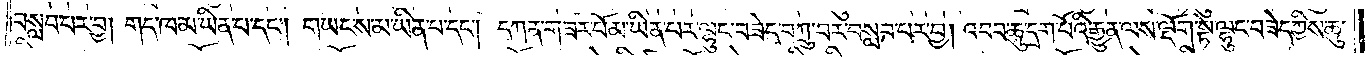བསླབ་པར་བྱ། གད་ཁ་མ་ཡིན་པ་དང༌། གཡང་ས་མ་ཡིན་པ་དང༌། དཀན་གཟར་པོ་མ་ཡིན་པར་ལྷུང་བཟེད་བཀྲུ་བར་བསླབ་པར་བྱ། འབབ་ཆུ་དྲག་པོའི་རྒྱུན་ལས་ལྡོག་སྟེ་ལྷུང་བཟེད་ཀྱིས་ཆུ་
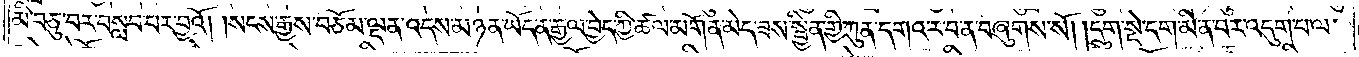མི་བཅུ་པར་བསླབ་པར་བྱའོ། །སངས་རྒྱས་བཅོམ་ལྡན་འདས་མཉན་ཡོད་ན་རྒྱལ་བྱེད་ཀྱི་ཚལ་མགོན་མེད་ཟས་སྦྱིན་གྱི་ཀུན་དགའ་ར་བ་ན་བཞུགས་སོ། །དྲུག་སྡེ་དག་མི་ན་བར་འདུག་པ་ལ་
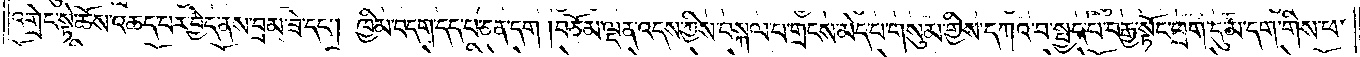འགྲེང་སྟེ་ཆོས་འཆད་པར་བྱེད་ནས་བྲམ་ཟེ་དང༌། ཁྱིམ་བདག་དད་པ་ཅན་དག །བཅོམ་ལྡན་འདས་ཀྱིས་བསྐལ་པ་གྲངས་མེད་པ་གསུམ་གྱིས་དཀའ་བ་སྤྱད་པ་བརྒྱ་སྟོང་ཕྲག་དུ་མ་དག་གིས་ཕ་
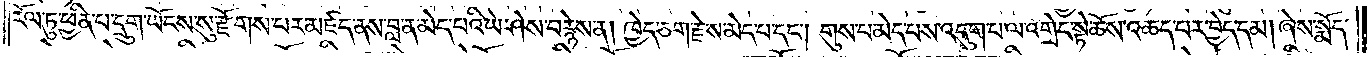རོལ་ཏུ་ཕྱིན་པ་དྲུག་ཡོངས་སུ་རྫོགས་པར་མཛད་ནས་བླ་ན་མེད་པའི་ཡེ་ཤེས་བརྙེས་ན། ཁྱེད་ཅག་རྗེ་ས་མེད་པ་དང༌། གུས་པ་མེད་པས་འདུག་པ་ལ་འགྲེང་སྟེ་ཆོས་འཆད་པར་བྱེད་དམ། ཞེས་སྨོད་
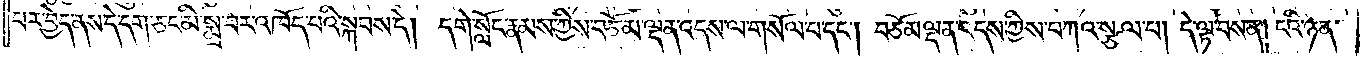པར་བྱེད་ནས་དེ་དག་ཅང་མི་སྨྲ་བར་འཁོད་པའི་སྐབས་དེ། དགེ་སློང་རྣམས་ཀྱིས་བཅོམ་ལྡན་འདས་ལ་གསོལ་པ་དང༌། བཅོམ་ལྡན་འདས་ཀྱིས་བཀའ་སྩལ་པ། དེ་ལྟ་བས་ན། ངའི་ཉན་
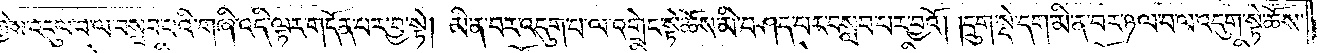ཐོས་རྣམས་ཀྱིས་འདུལ་བ་ལ་བསླབ་པའི་གཞི་འདི་ལྟར་གདོན་པར་བྱ་སྟེ། མི་ན་བར་འདུག་པ་ལ་འགྲེང་སྟེ་ཆོས་མི་བཤད་པར་བསླབ་པར་བྱའོ། །དྲུག་སྡེ་དག་མི་ན་བར་ཉལ་བ་ལ་འདུག་སྟེ་ཆོས་
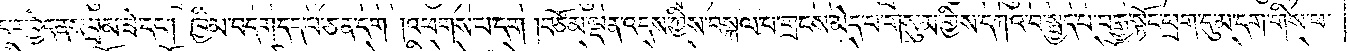འཆད་པར་བྱེད་ནས་བྲམ་ཟེ་དང༌། ཁྱིམ་བདག་དད་པ་ཅན་དག །འཕགས་པ་དག །བཅོམ་ལྡན་འདས་ཀྱིས་བསྐལ་པ་གྲངས་མེད་པ་གསུམ་གྱིས་དཀའ་བ་སྤྱད་པ་བརྒྱ་སྟོང་ཕྲག་དུ་མ་དག་གིས་ཕ་
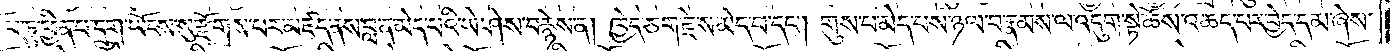རོལ་ཏུ་ཕྱིན་པ་དྲུག་ཡོངས་སུ་རྫོགས་པར་མཛད་ནས་བླ་ན་མེད་པའི་ཡེ་ཤེས་བརྙེས་ན། ཁྱེད་ཅག་རྗེས་མེད་པ་དང༌། གུས་པ་མེད་པས་ཉལ་བ་རྣམས་ལ་འདུག་སྟེ་ཆོས་འཆད་པར་བྱེད་དམ་ཞེས་
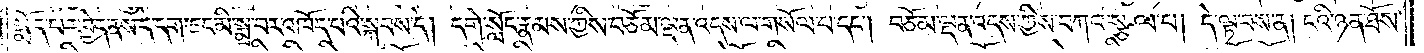སྨོད་པར་བྱེད་ནས་དེ་དག་ཅང་མི་སྨྲ་བར་འཁོད་པའི་སྐབས་དེ། དགེ་སློང་རྣམས་ཀྱིས་བཅོམ་ལྡན་འདས་ལ་གསོལ་པ་དང༌། བཅོམ་ལྡན་འདས་ཀྱིས་བཀའ་སྩལ་པ། དེ་ལྟ་བས་ན། ངའི་ཉན་ཐོས་
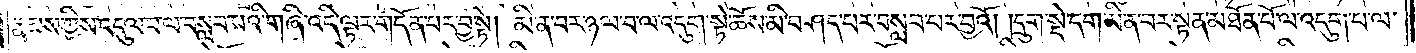རྣམས་ཀྱིས་འདུལ་བ་ལ་བསླབ་པའི་གཞི་འདི་ལྟར་གདོན་པར་བྱ་སྟེ། མི་ན་བར་ཉལ་བ་ལ་འདུག་སྟེ་ཆོས་མི་བཤད་པར་བསླབ་པར་བྱའོ། །དྲུག་སྡེ་དག་མི་ན་བར་སྟན་མཐོན་པོ་ལ་འདུག་པ་ལ་
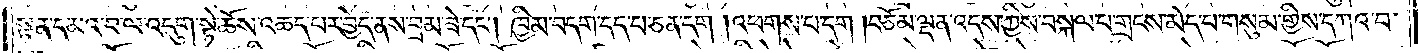སྟན་དམའ་བ་ལ་འདུག་སྟེ་ཆོས་འཆད་པར་བྱེད་ནས་བྲམ་ཟེ་དང༌། ཁྱིམ་བདག་དད་པ་ཅན་དག །འཕགས་པ་དག །བཅོམ་ལྡན་འདས་ཀྱིས་བསྐལ་པ་གྲངས་མེད་པ་གསུམ་གྱིས་དཀའ་བ་
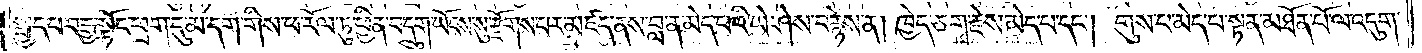སྤྱད་པ་བརྒྱ་སྟོང་ཕྲག་དུ་མ་དག་གིས་ཕ་རོལ་ཏུ་ཕྱིན་པ་དྲུག་ཡོངས་སུ་རྫོགས་པར་མཛད་ནས་བླ་ན་མེད་པའི་ཡེ་ཤེས་བརྙེས་ན། ཁྱེད་ཅག་རྗེས་མེད་པ་དང༌། གུས་པ་མེད་པ་སྟན་མཐོན་པོ་ལ་འདུག་
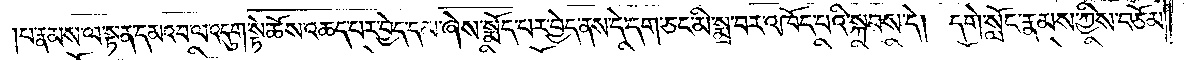པ་རྣམས་ལ་སྟན་དམའ་བ་ལ་འདུག་སྟེ་ཆོས་འཆད་པར་བྱེད་དམ་ཞེས་སྨོད་པར་བྱེད་ནས་དེ་དག་ཅང་མི་སྨྲ་བར་འཁོད་པའི་སྐབས་དེ། དགེ་སློང་རྣམས་ཀྱིས་བཅོམ་
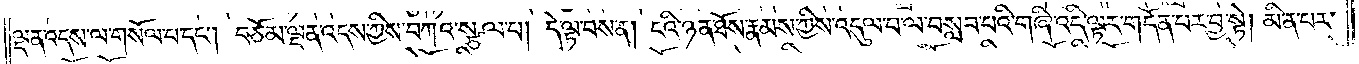ལྡན་འདས་ལ་གསོལ་པ་དང༌། བཅོམ་ལྡན་འདས་ཀྱིས་བཀའ་སྩལ་པ། དེ་ལྟ་བས་ན། ངའི་ཉན་ཐོས་རྣམས་ཀྱིས་འདུལ་བ་ལ་བསླབ་པའི་གཞི་འདི་ལྟར་གདོན་པར་བྱ་སྟེ། མི་ན་པར་
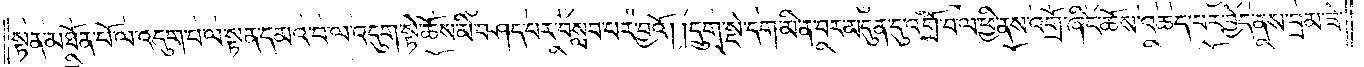སྟན་མཐོན་པོ་ལ་འདུག་པ་ལ་སྟན་དམའ་བ་ལ་འདུག་སྟེ་ཆོས་མི་བཤད་པར་བསླབ་པར་བྱའོ། །དྲུག་སྡེ་དག་མི་ན་བར་མདུན་དུ་འགྲོ་བ་ལ་ཕྱི་ནས་འགྲོ་ཞིང་ཆོས་འཆད་པར་བྱེད་ནས་བྲམ་ཟེ་
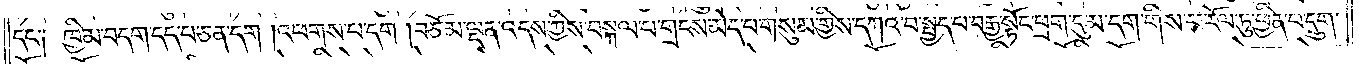དང་༑ ཁྱིམ་བདག་དད་པ་ཅན་དག །འཕགས་པ་དག །བཅོམ་ལྡན་འདས་ཀྱིས་བསྐལ་པ་གྲངས་མེད་པ་གསུམ་གྱིས་དཀའ་བ་སྤྱད་པ་བརྒྱ་སྟོང་ཕྲག་དུ་མ་དག་གིས་ཕ་རོལ་ཏུ་ཕྱིན་པ་དྲུག་
